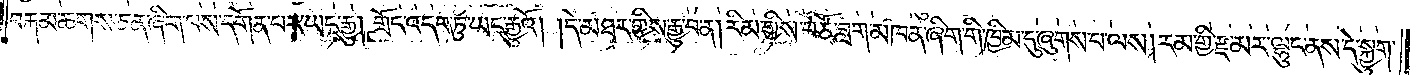བརྐམ་ཆགས་ཅན་ཞིག་པས་དགོན་པར་ཡང་རྒྱུ། གྲོང་འདབ་ཏུ་ཡང་རྒྱུའོ། །དེ་མཐར་གྱིས་རྒྱུ་བ་ན། རིམ་གྱིས་བཙོ་བླག་མཁན་ཞིག་གི་ཁྱིམ་དུ་ཞུགས་པ་ལས། རམ་གྱི་རྫ་མར་ལྷུང་ནས་དེ་སྐྱུག་
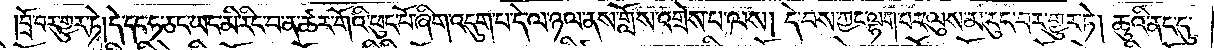བྲོ་བར་གྱུར་ཏེ། དེ་དང་ཧ་ཅང་ཡང་མི་རིང་བ་ན་ཚར་གོའི་ཕུང་པོ་ཞིག་འདུག་པ་དེ་ལ་ཉལ་ནས་གློས་འགྲེས་པ་ལས། དེ་བས་ཀྱང་ལྷག་པར་ལུས་མ་རུང་བར་གྱུར་ཏེ། ཆུའི་ནང་དུ་
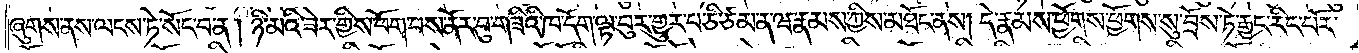ཞུགས་ནས་ལངས་ཏེ་སོང་བ་ན། ཉི་མའི་ཟེར་གྱིས་ཕོག་པས་ནོར་བུ་གཟིའི་ཁ་དོག་ལྟ་བུར་གྱུར་པ་ཅི་ཙམ་ན་ཝ་རྣམས་ཀྱིས་མཐོང་ནས། དེ་རྣམས་ཕྱོགས་ཕྱོགས་སུ་བྲོས་ཏེ་རྒྱང་རིང་པོར་
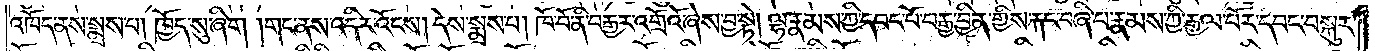འཁོད་ནས་སྨྲས་པ། ཁྱོད་སུ་ཞིག །གང་ནས་འདིར་འོངས། དེས་སྨྲས་པ། ཁོ་བོ་ནི་བརྒྱར་འགྲོའོ་ཞེས་བྱ་སྟེ། ལྷ་རྣམས་ཀྱི་དབང་པོ་བརྒྱ་བྱིན་གྱིས་རྐང་བཞི་པ་རྣམས་ཀྱི་རྒྱལ་པོར་དབང་བསྐུར་
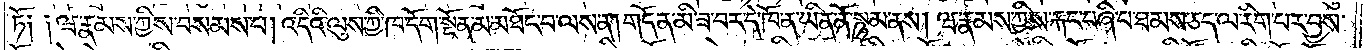ཏོ། །ཝ་རྣམས་ཀྱིས་བསམས་པ། འདིའི་ལུས་ཀྱི་ཁ་དོག་སྔོན་མ་མཐོང་བ་ལས་ན། གདོན་མི་ཟ་བར་དེ་ཁོ་ན་ཡིན་ནོ་སྙམ་ནས། ཝ་རྣམས་ཀྱིས་རྐང་བཞི་པ་ཐམས་ཅད་ལ་རིག་པར་བྱས་
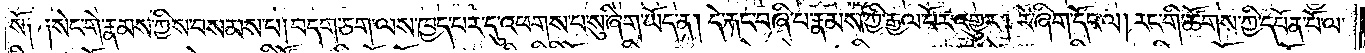སོ། །སེང་གེ་རྣམས་ཀྱིས་བསམས་པ། བདག་ཅག་ལས་ཁྱད་པར་དུ་འཕགས་པ་སུ་ཞིག་ཡོད་ན། དེ་རྐང་བཞི་པ་རྣམས་ཀྱི་རྒྱལ་པོར་འགྱུར། རེ་ཞིག་དོང་ལ། རང་གི་ཚོགས་ཀྱི་དཔོན་པོ་ལ་
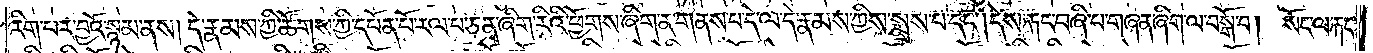རིག་པར་བྱའོ་སྙམ་ནས། དེ་རྣམས་ཀྱི་ཚོགས་ཀྱི་དཔོན་པོ་རལ་པ་ཅན་ཞིག་རིའི་ཕྱོགས་ཞིག་ན་གནས་པ་དེ་ལ་དེ་རྣམས་ཀྱིས་སྨྲས་པ་དང༌། དེས་རྐང་བཞི་པ་གཞན་ཞིག་ལ་བསྒོ་བ། སོང་ལ་རྐང་
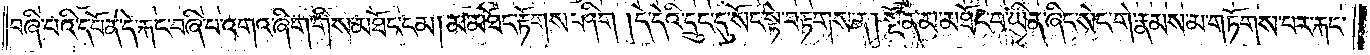བཞི་པའི་དཔོན་དེ་རྐང་བཞི་པ་འགའ་ཞིག་གིས་མཐོང་ངམ། མ་མཐོང་རྟོགས་ཤིག །དེ་དེའི་དྲུང་དུ་སོང་སྟེ་བརྟགས་ན། སྔོན་མ་མཐོང་བ་ཡིན་ཞིང་སེང་གེ་རྣམས་མ་གཏོགས་པར་རྐང་
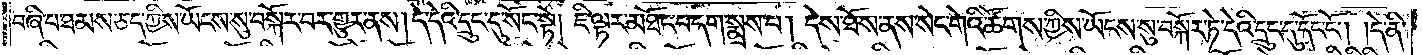བཞི་པ་ཐམས་ཅད་ཀྱིས་ཡོངས་སུ་བསྐོར་བར་གྱུར་ནས། དེ་དེའི་དྲུང་དུ་སོང་སྟེ། ཇི་ལྟར་མཐོང་བདག་སྨྲས་པ། དེས་ཐོས་ནས་སེང་གེའི་ཚོགས་ཀྱིས་ཡོངས་སུ་བསྐོར་ཏེ་དེའི་དྲུང་དུ་དོང་ངོ༌། །དེ་ནི་
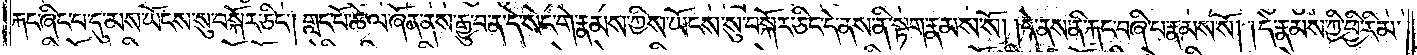རྐང་ཞིང་པ་དུ་མས་ཡོངས་སུ་བསྐོར་ཅིང༌། གླང་པོ་ཆེ་ལ་ཞོན་ནས་རྒྱུ་བ་ན་དེ་སེང་གེ་རྣམས་ཀྱིས་ཡོངས་སུ་བསྐོར་ཅིང༌། དེ་རྣམས་ཀྱི་ཕྱི་རིམ་།དེ་རྣམས་ཀྱི་ཕྱི་རིམ་
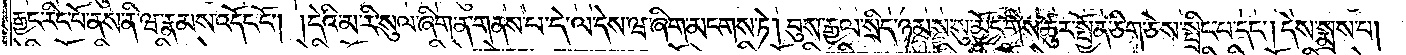རྒྱང་རིང་པོ་ནས་ནི་ཝ་རྣམས་འདོང་ངོ༌། །དེའི་མ་རི་སུལ་ཞིག་ན་གནས་པ་དེ་ལ་དེས་ཝ་ཞིག་མངགས་ཏེ། བུས་རྒྱལ་སྲིད་ཉམས་སུ་མྱོང་གིས་ཚུར་སྤྱོན་ཅིག་ཅེས་སྤྲིང་པ་དང༌། དེས་སྨྲས་པ།
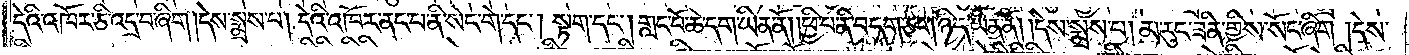དེའི་འཁོར་ཅི་འདྲ་བ་ཞིག །དེས་སྨྲས་པ། དེའི་འཁོར་ནང་པ་ནི་སེང་གེ་དང༌། སྟག་དང༌། གླང་པོ་ཆེ་དག་ཡིན་ནོ། །ཕྱི་པ་ནི་བདག་ཅག་ཉིད་ཡིན་ནོ། །དེས་སྨྲས་པ། མ་རུང་ཟིན་གྱིས་སོང་ཞིག །དེས་
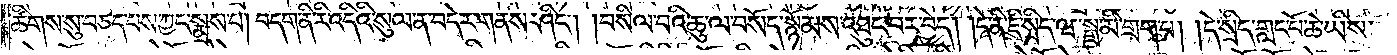ཚིགས་སུ་བཅད་པས་ཀྱང་སྨྲས་པ། བདག་ནི་རི་འདིའི་སུལ་ན་བདེར་གནས་ཤིང༌། །བསིལ་བའི་ཆུ་ལ་བསོད་སྙོམས་འཐུང་བར་བྱེད། །དེ་ནི་ཇི་སྲིད་ཝ་སྒྲ་མི་གྲག་པ། །དེ་སྲིད་གླང་པོ་ཆེ་ཡིས་
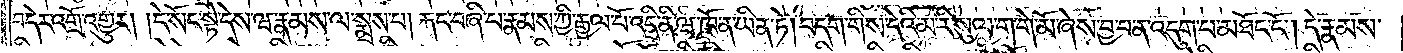བདེར་འགྲོ་འགྱུར། །དེ་སོང་སྟེ་དེས་ཝ་རྣམས་ལ་སྨྲས་པ། རྐང་བཞི་པ་རྣམས་ཀྱི་རྒྱལ་པོ་འདི་ནི་ཝ་ཁོ་ན་ཡིན་ཏེ། བདག་གིས་དེའི་མ་རི་སུལ་ག་གེ་མོ་ཞེས་བྱ་བ་ན་འདུག་པ་མཐོང་ངོ༌། དེ་རྣམས་
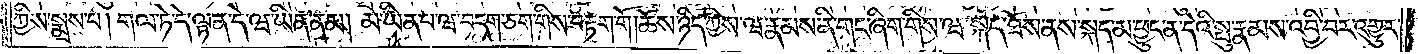ཀྱིས་སྨྲས་པ། གལ་ཏེ་དེ་ལྟ་ན་དེ་ཝ་ཡིན་ནམ། མ་ཡིན་པ་ཝ་བདག་ཅག་གིས་བརྟག་གོ །ཆོས་ཉིད་ཀྱིས་ཝ་རྣམས་ནི་གང་ཞིག་གིས་ཝ་སྐད་ཐོས་ནས་སྐད་མ་ཕྱུང་ན་དེའི་སྤུ་རྣམས་འབྱི་བར་འགྱུར་
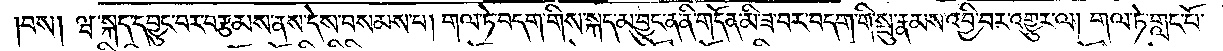བས། ཝ་སྐད་དབྱུང་བར་བརྩམས་ནས་དེས་བསམས་པ། གལ་ཏེ་བདག་གིས་སྐད་མ་བྱུང་ན་ནི་གདོན་མི་ཟ་བར་བདག་གི་སྤུ་རྣམས་འབྱི་བར་འགྱུར་ལ། གལ་ཏེ་གླང་པོ་
